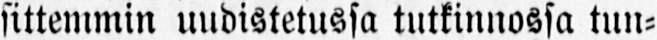sittemmin uudistetussa tutkinnossa tun-
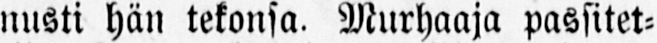nusti hän tekonsa. Murhaaja passitet-
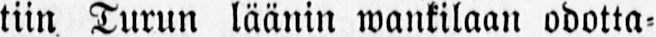tiin Turun läänin wankilaan odotta-
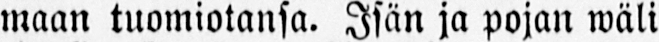maan tuomiotansa. Isän ja pojan wäli
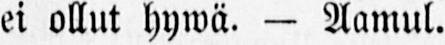ei ollut hywä. — Aamul.
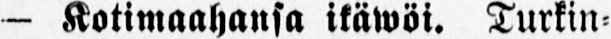— Kotimaahansa ikäwöi. Turkin-
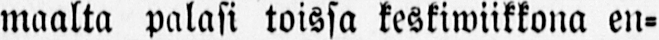maalta palasi toissa keskiwiikkona en-
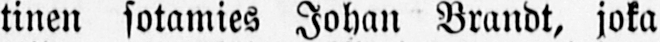tinen sotamies Johan Brandt, joka
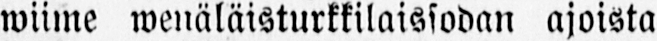wiime wenäläisturkkilaissodan ajoista
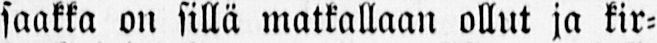saakka on sillä matkallaan ollut ja kir-
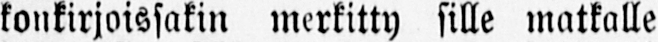konkirjoissakin merkitty sille matkalle
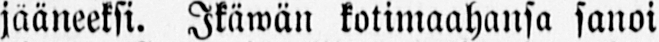jääneeksi. Ikäwän kotimaahansa sanoi
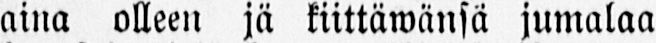aina olleen jä kiittäwänsä jumalaa
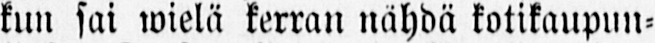kun sai wielä kerran nähdä kotikaupun-
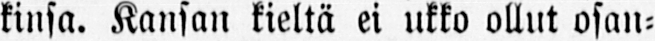kinsa. Kansan kieltä ei ukko ollut osan-
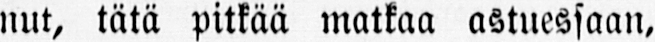nut, tätä pitkää matkaa astuessaan.
